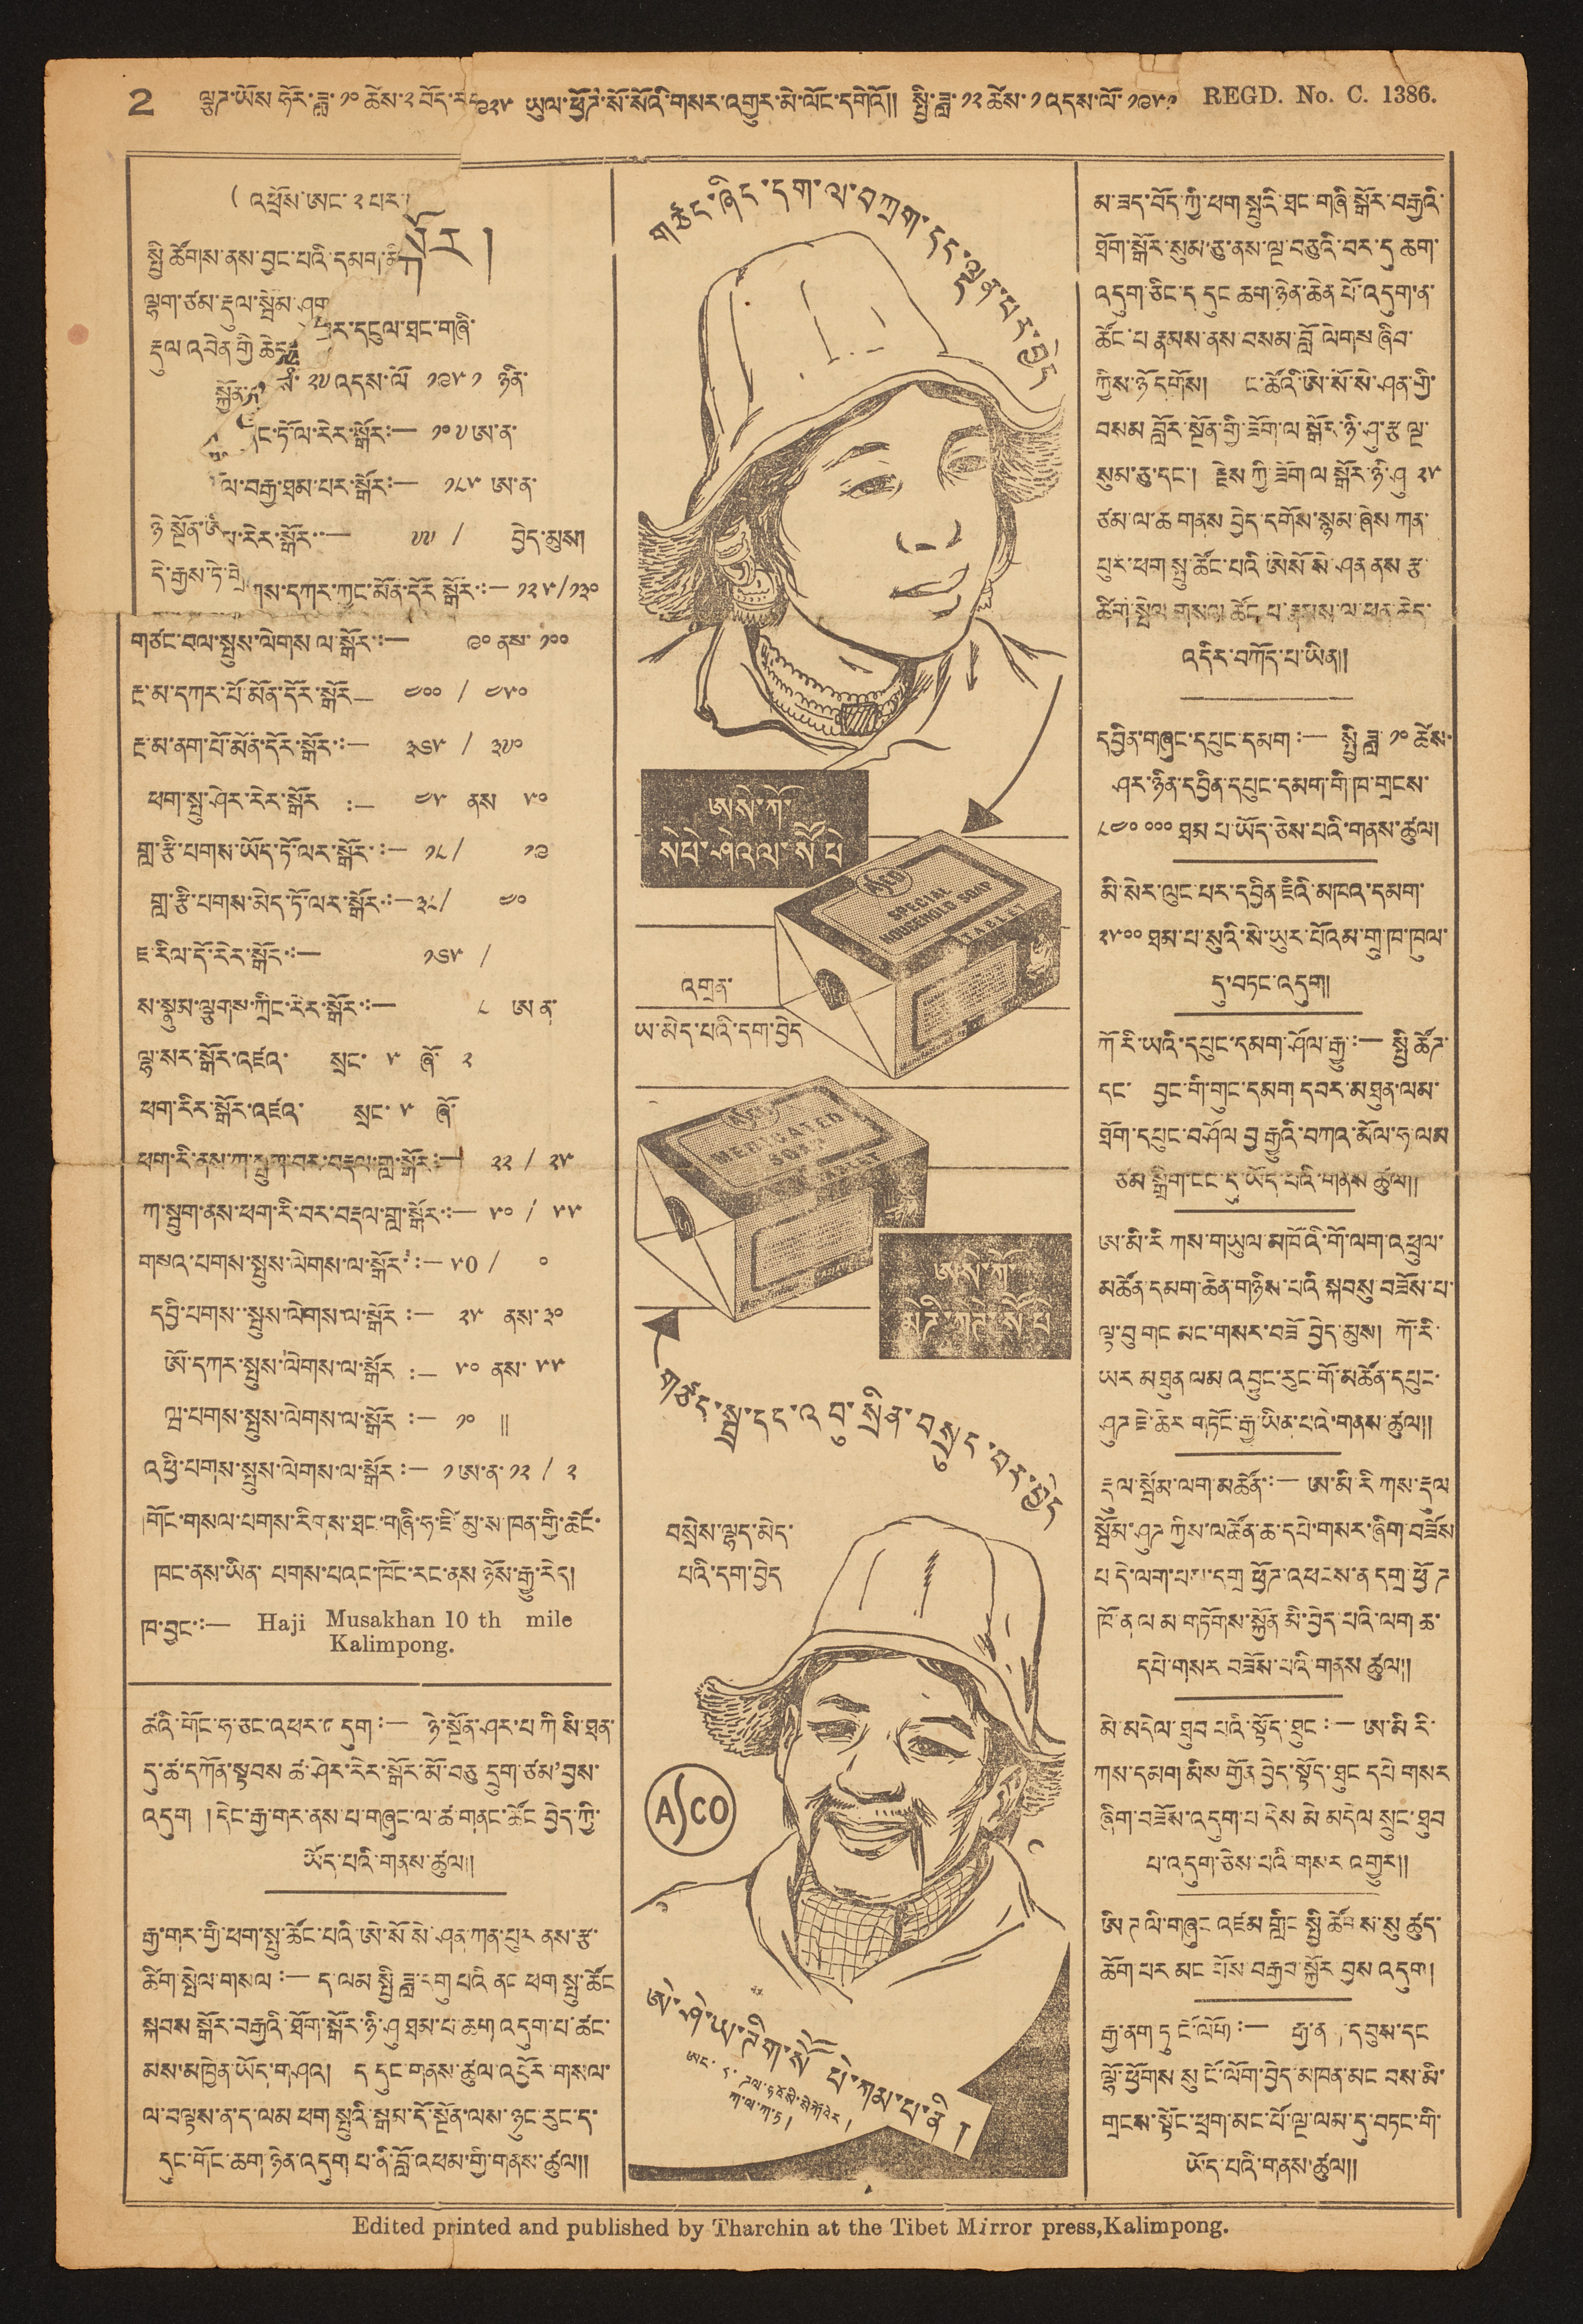2 ལྕཌ་ཡོས ཧོར་ཟླ་ ༡༠ ཚེས་༢བོད་རབ ༩༢༥ ཡུལ་ཕྱོཌ་སོ་སོའི་གསར་འགྱུར་མེ་ལོང་དགེའོ།། སྤྱི་ཟླ་ ༡༢ ཚེས་ ༡འདས་ལོ་ ༡༩༥༠ REGD. NO. C. 1386.
(འཕྲོས་ཨང་ ༢པར།
སྤྱི་ཚོགས་ནས་བྱང་པའི་དམག་མི་སྐོར།
ལྷག་ཙམ་རྡུལ་སྦོམ་ཤུག
རྡུལ་འབེན་གྱི ཆེད་ ཐར་དངུལ་ཐང་གཞི་
སྐྱོན་ ས་ ༢༧ འདས་ལོ ༡༩༥༡ ཉིན་
ནང་ཏོ་ལ་རེར་སྒོར་:— ༡༠༧ ཨ་ན་
ལ་བརྒྱ་ཐམ་པར་སྒོར་:— ༡༨༥ ཨ་ན་
ཉེ སྔོན་ཨཔ་རེར་སྒོར་:— ༧༧/ བྱེད་མུས།
དེ་རྒྱས་ཏེ་གྲེགས་དཀར་ཀྱང་མོན་དོར སྒོར་:— ༡༢༥/༡༣༠
གཙང་བལ་སྤུས་ལེགས ལ་སྒོར་:— ༩༠ ནས་ ༡༠༠
རྔ་མ་དཀར་པོ་མོན་དོར་སྒོར— ༤༠༠ / ༤༥༠
རྔ་མ་ནག་པོ་མོན་དོར་སྒོར་:— ༣༦༥ / ༣༧༠
ཕག་སྤུ་ཤེར་རེར་སྒོར :— ༤༥ ནས ༥༠
གླ་རྩི་པགས་ཡོད་ཏོ་ལར་སྒོར་ :— ༡༨/ ༡༩
གླ་རྩི་པགས་མེད་ཏོ་ལར་སྒོར་ ༣༨/༤༠
ཇ་རིལ་དོ་རེར་སྒོར་:— ༡༦༥/
ས་སྣུམ་ལྕགས་ཀྲིང་རེར་སྒོར་:— ༨ ཨ ན་
ལྷ་སར་སྒོར་འཛའ་ སྲང་ ༥ ཞོ་ ༢
ཕག་རིར་སྒོར་འཛའ་ སྲང་ ༥ ཞོ་
ཕག་རི་ནས་ཀ་སྤུག་བར་བརྡལ་གླུ་སྒོར་:— ༢༢/༢༥
ཀ་སྦུག་ནས་ཕག་རི་བར་བརྡལ་གླུ་སྒོར་:—༥༠ / ༥༥
གསའ་པགས་སྤུས་ལེགས་ལ་སྒོར་:— ༥O / ༠
དབྱི་པགས་སྤུས་ལེགས་ལ་སྒོར :— ༢༥ ནས་༣༠
ཨོ་དཀར་སྤུས་ལེགས་ལ་སྒོར :— ༥༠ ནས་ ༥༥
ཝ་པགས་སྤུས་ལེགས་ལ་སྒོར :— ༡༠ །།
འཕྱི་པགས་སྤུས་ལེགས་ལ་སྒོར་:— ༡ཨ་ན་ ༡༢/༢
གོང་གསལ་པགས་རིགས་ཐང་གཞི་ཧ་ཇི་མུ་ས་ཁན་གྱི་ཚོང་
ཁང་ནས་ཡིན་པགས་པའང་ཁོང་རང་ནས ཉོས་རྒྱུ་རེད།
ཁ་བྱང་:— Haji Musakhan 10th mile
Kalimpong.
ཚའི་གོང་ཧ་ཅང་འཕར་འདུག་:— ཉེ་སྔོན་ཤར་པ ཀི སི་ཐན་
དུ་ཚ་དཀོན་སྟབས ཚ་ཤེར་རེར་སྒོར་མོ་བཅུ དྲུག་ཙམ་བྱས་
འདུག །དེང་རྒྱ་གར་ནས་པ་གཞུང་ལ་ཚ་གནང་ཚོང བྱེད་ཀྱི་
ཡོད་པའི་གནས་ཚུལ།།
རྒྱ་གར་གྱི་ཕག་སྤུ་ཚོང་པའི་ཨེ་སོ སེ་ཤན་ཀན་པུར ནས་རྩ་
ཚིག་སྤེལ་གསལ་:—ད་ལམསྤྱི ཟླ་དགུ པའི ནང ཕག སྤུ་ཚོང
སྐབས སྒོར་བརྒྱའི་ཐོག་སྒོར་ཉི་ཤུ ཐམ་པ་ཆག་འདུག་པ་ཚང་
མས་མཁྱེན་ཡོད་གཤའ། ད དུང་གནས་ཚུལ་འབྱོར་གསལ་
ལ་བལྟས་ན་ད་ལམ ཕག སྤུའི་སྒམ་དོ་སྔོན་ལས་ཉུང་རུང་ད་
དུང་གོང་ཆག་ཉེན་འདུག པ་ནི་བློ་འཕམ་གྱི་གནས་ཚུལ།།
གཙང་ཞིང་དག་ལ་བཀྲག་དང་ལྡན་པར་བྱེད
ཨསེ་ཀོ་
སེཔེ་ཤེའལ་སོཔེ
འགྲན་
ཡ་མེད་པའི་དག་བྱེད
ASCO
SPECIAL
HOUSEHOLD SOAP
TABLET
ASCO
MEDICATED
SOAP
ཨསི་ཀོ་
མེཌི་ཀྲཊ་སོ་པེ
གཙང་སྦྲ་དང་འབུ་སྲིན་བསྲུང་བར་བྱེད
བསྲེས་ལྷད་མེད་
པའི་དག་བྱེད
ASCO
ཨེ་ཤེ་ཡ་ཊིག་སོ་ཀམ་པ་ནི།
ཨང་ ༨ ཌལ་ཧའོསི་སེཀོའེར།
ཀ་ལ་ཀ་ཏ།
མ་ཟད་བོད་ཀྱི་ཕག སྤུའི་ཐང་གཞི་སྒོར་བརྒྱའི་
ཐོག་སྒོར་སུམ་ཅུ་ནས་ལྔ་བཅུའི་བར་དུ ཆག་
འདུག་ཅིང་ད དུང ཆག་ཉེན་ཆེན པོ་འདུག་ན་
ཚོང་པ རྣམས་ནས་བསམ་བློ ལེགས ཞིབ་
ཀྱིས་ཉོདགོས། ང་ཚོའི་ཨེ་སོ་སེ་ཤན་གྱི་
བསམ བློར་སྔོན་གྱི་ཟོག་ལ་སྒོར་ཉི་ཤུ་རྩ ལྔ་
སུམ་ཅུ་དང་། རྗེས ཀྱི་ཟོག ལ སྒོར་ཉི་ཤུ ༢༥
ཙམ་ལ་ཚ གནས བྱེད་དགོས་སྙམ་ཞེས ཀན་
པུར་ཕག སྤུ་ཚོང་པའི ཨེསོ སེ་ཤན ནས རྩ་
ཚིག་སྤེལ གསལ ཚོང པ་རྣམས་ལ་ཕན་ཆེད་
འདིར་བཀོད་པ་ཡིན།།
དབྱིན་གཞུང་དཔུང་དམག :— སྤྱི ཟླ་ ༡༠ ཚེས་
ཤར་ཉིན་དབྱིན་དཔུང་དམག་གི་ཁ་གྲངས་
༨༤༠༠༠༠ ཐམ པ་ཡོད་ཅེས་པའི་གནས་ཚུལ།
མི་སེར་ལུང་པར་དབྱིན་ཇིའི་མཁའ་དམག་
༢༥༠༠ ཐམ་པ་སུའི་སེ་ཡུར་པོའམ་གྲུ་ཁ་ཁུལ་
དུ་བཏང་འདུག།།
ཀོ རི་ཡའི་དཔུང་དམག་ཤོལ་རྒྱུ་:—སྤྱི ཚོཌ་
དང་ བྱང་གི་གུང་དམག དབར་མཐུན་ལམ་
ཐོག་དཔུང་བཤོལ བྱ་རྒྱུའི་བཀའ་མོལ་ཧ་ལམ
ཙམ སྒྲིག་ངང་དུ་ཡོད་པའི་གནས ཚུལ།
ཨ་མི་རི ཀས་གཡུལ་མཁོའི་གོ་ལག་འཕྲུལ་
མཚོན་དམག་ཆེན་གཉིས་པའི སྐབསུ་བཟོས་པ་
ལྟ་བུ གང མང་གསར་བཟོ བྱེད་མུས། ཀོ་རི་
ཡར མཐུན ལམ འབྱུང་རུང་གོ་མཚོན་དཔུང་
ཤུཌ ཇེ་ཆེར་གཏོང་རྒྱུ་ཡིན་པའི་གནས་ཚུལ།།
རྡུལ་སྦོམ་ལག་མཚོན་:—ཨ་མི་རི ཀས་རྡུལ
སྦོམ་ཤུཌ ཀྱིས་ལཚོན་ཆ་དཔེ་གསར་ཞིག་བཟོས
པ དེ་ལག་པས་དགྲ ཕྱོཌ་འཕངས་ན་དགྲ་ཕྱོཌ
ཁོ་ནལ མ་གཏོགས་སྐྱོན མི་བྱེད་པའི་ལག ཆ་
དཔེ་གསར བཟོས་པའི་གནས ཚུལ།།
མེ་མདེལ་ཐུབ པའི་སྟོད་ཐུང་:— ཨ་མི རི་
ཀས་དམག མིས གྱོན བྱེད་སྟོད་ཐུང དཔེ གསར
ཞིག་བཟོས་འདུག་པ དེས མེ མདེལ སྲུང་ཐུབ
པ་འདུག་ཅེས་པའི་གསར འགྱུར།།
ཨིཊ ལི་གཞུང འཛམ གླིང སྤྱི ཚོགས་སུ ཚུད་
ཆོག་པར མང པོས་བརྒྱབ་སྐྱོར བྱས འདུག།།
རྒྱ་ནག ཏུ ངེ་ལོག་— རྒྱ་ནག་དབུས་དང
ལྷོ་ཕྱོགས་སུ ངོ་ལོག་བྱེད་མཁན་མང བས་མི་
གྲངས་སྟོང་ཕྲག་མང་པོ་ལྔ་ལམ་དུ་བཏང་གི་
ཡོད་པའི་གནས་ཚུལ།།
Edited printed and published by Tharchin at the Tibet Mirror press, Kalimpong.
